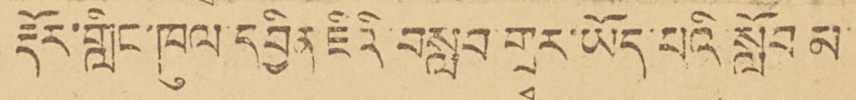རྡོར་གླིང་ཁུལ་དབྱིན ཇིའི་བསླབ་གྲྭར་ཡོད་པའི་སློབ་མ་
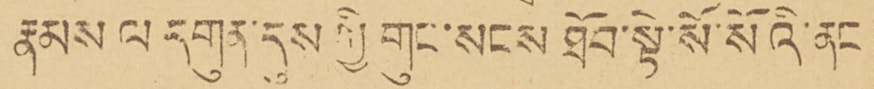རྣམས ལ དགུན་དུས ཀྱི གུང་སངས ཐོབ་སྟེ་སོ་སོའི་ནང
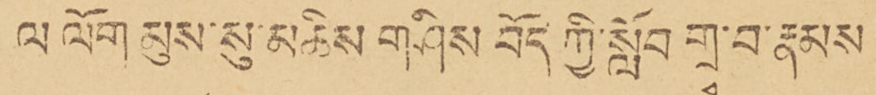ལ ལོག མུས་སུ་མཆིས གཤིས བོད ཀྱི་སློབ་གྲྭ་བ་རྣམས
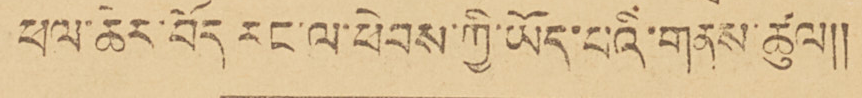ཕལ་ཆེར་བོད རང་ལ་ཕེབས་ཀྱི་ཡོད་པའི་གནས་ཚུལ།།
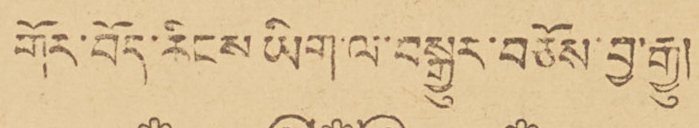གོར་བོད་རིངས ཡིག་ལ་བསྒྱུར་བཅོས་བྱ་རྒྱུ།
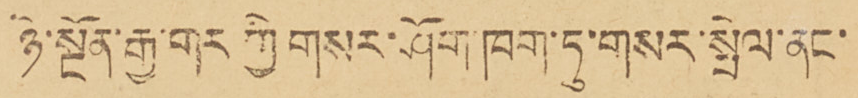ཉེ་སྔོན་རྒྱ་གར ཀྱི གསར་ཤོག་ཁག་ཏུ་གསར་སྤེལ་ནང་
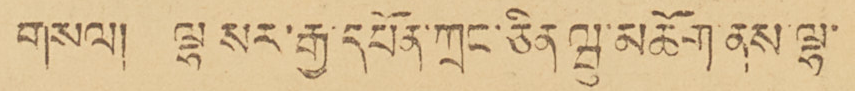གསལ། ལྷ་སར་རྒྱ་དཔོན་ཀྲང་ཅིན་ཝུ་མཆོག ནས་ལྷ་
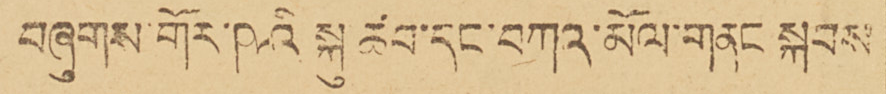བཞུགས་གོར་ཥའི སྐུ་ཚབ་དང་བཀའ་མོལ་གནང སྐབས
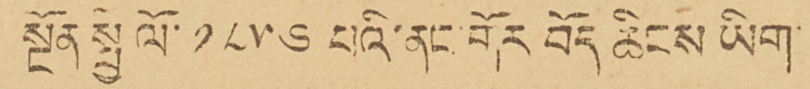སྔོན སྤྱི ལོ་ ༡༨༥༦ པའི་ནང་གོར བོད ཆིངས ཡིག་
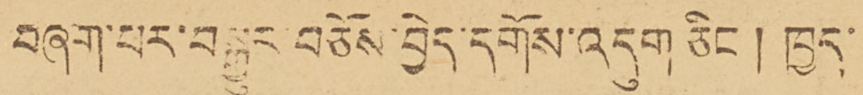བཞག་པར་བསྒྱུར་བཅོས་བྱེད་དགོས་འདུག ཅིང་། ཁྱད་
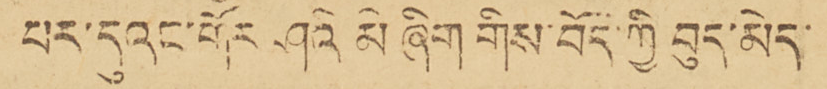པར་དུའང་གོར ཤའི མེ ཞིག གིས་བོད་ཀྱི བུད་མེད་
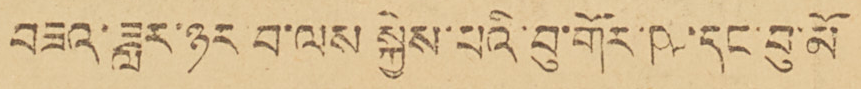བཟའ་ཟླར་ཉར་བ་ལས སྐྱེས་པའི་བུ་གོར་ཥ་དང་བུ་མོ
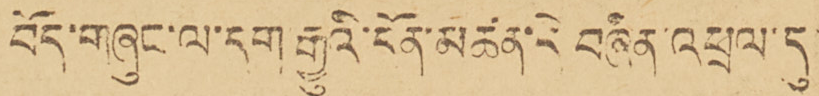བོད་གཞུང་ལ་དག རྒྱུའི་དོན་མཚན་དེ བཞིན་འཕྲལ་དུ
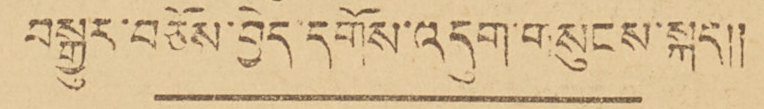བསྒྱུར་བཅོས་བྱེད་དགོས་འདུག་གསུངས་སྐད།།
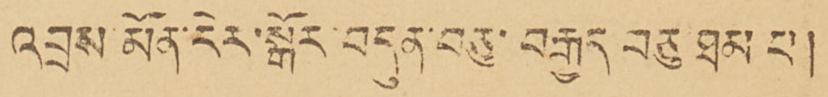འབྲས་མོན་རེར་སྒོར་བདུན་བཅུ་བརྒྱད བཅུ ཐམ པ།
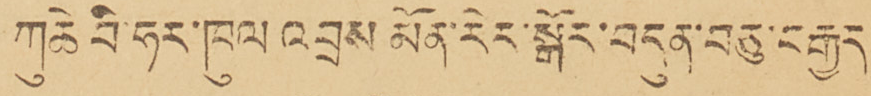ཀུཆེ བི་ཧར་ཁུལ འབྲས མོན་རེར་སྒོར་བདུན་བཅུ་བརྒྱད
